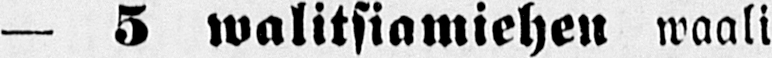— 5 walitsiamiehen waali
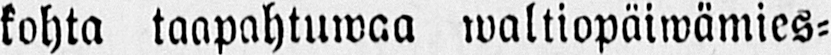kohta taapahtuwaa waltiopäiwämies-
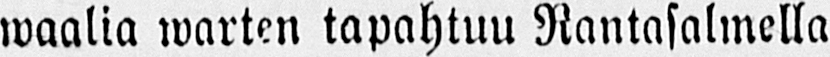waalia warten tapahtuu Rantasalmella
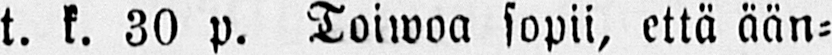t. k. 30 p. Toiwoa sopii, että ään-
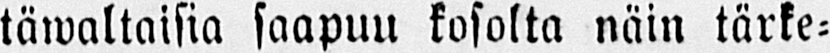täwaltaisia saapuu kosolta näin tärke-
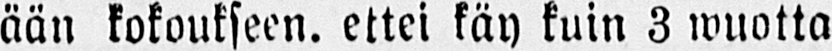ään kokoukseen, ettei käy kuin 3 wuotta
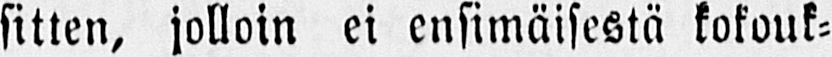sitten, jolloin ei ensimäisestä kokouk-
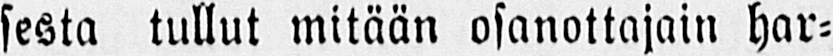sesta tullut mitään osanottajain har-
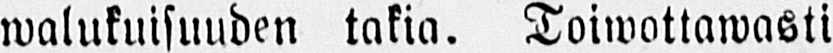walukuisuuden takia. Toiwottawasti
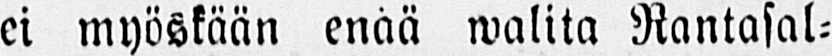ei myöskään enää walita Rantasal-
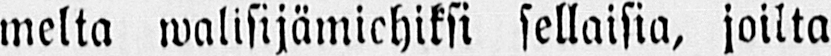melta walisijämiehiksi sellaisia, joilta
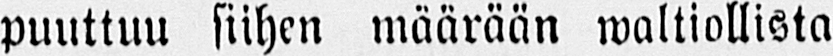puuttuu siihen määrään waltiollista
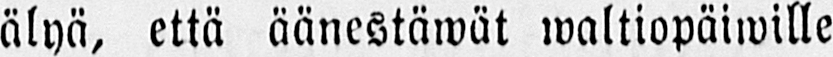älyä, että äänestäwät waltiopäiwille
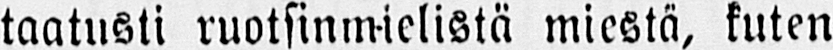taatusti ruotsinmielistä miestä, kuten
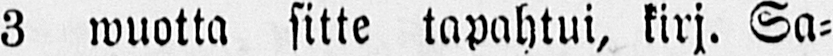3 wuotta sitte tapahtui, kirj. Sa-
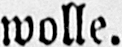wolle.
